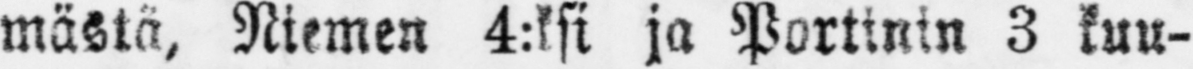mästä, Niemen 4:ksi ja Portinin 3 kuu-
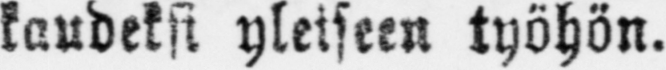kaudeksi yleiseen työhön.
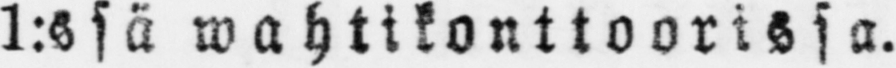1:ssä wahtikonttoorissa.
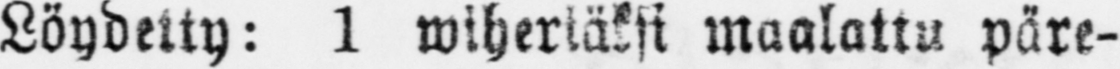Löydetty: 1 wiheriäksi maalattu päre-
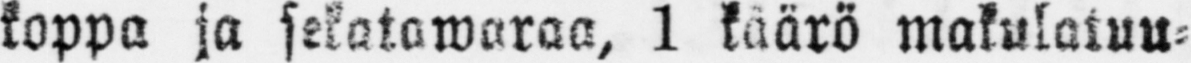koppa ja sekatawaraa, 1 käärö makulatuu-
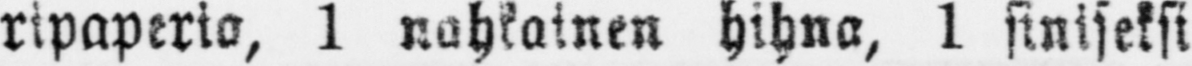ripaperia, 1 nahkainen hihna, 1 siniseksi
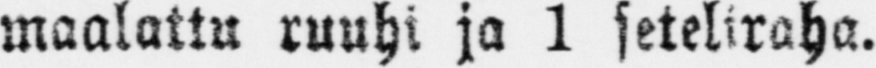maalattu ruuhi ja 1 seteliraha.
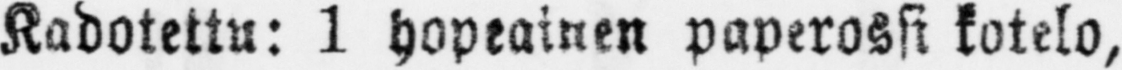Kadotettu: 1 hopeainen paperossi kotelo,
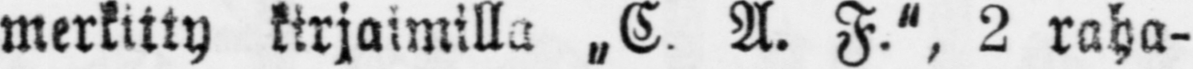merkitty kirjaimilla „C. A. F.", 2 raha-
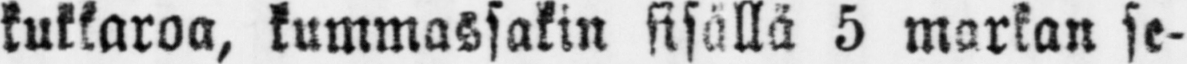kukkaroa, kummassakin sisällä 5 markan se-
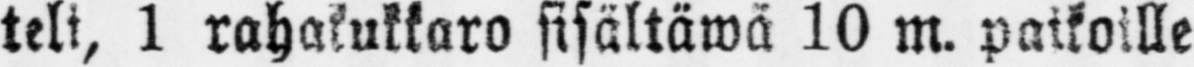teli, 1 rahakukkaro sisältäwä 10 m. paikoille
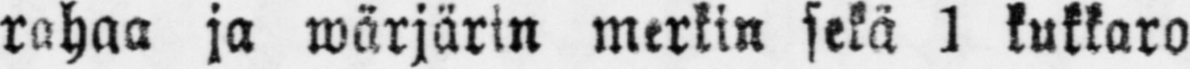rahaa ja wärjärin merkin sekä 1 kukkaro
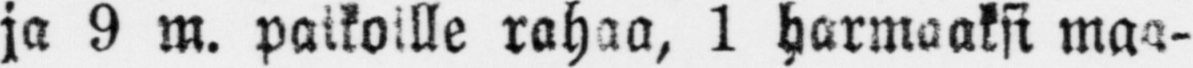ja 9 m. paikoille rahaa, 1 harmaaksi maa-
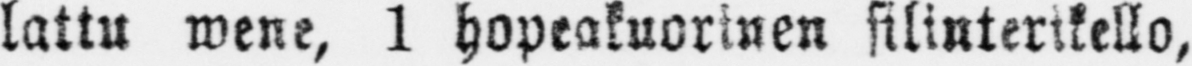lattu wene, 1 hopeakuorinen silinterikello,
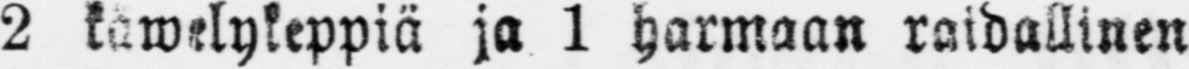2 kawelykeppiä ja 1 harmaan raidallinen
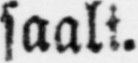saali.
